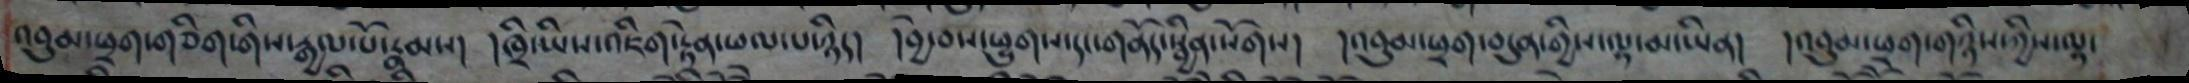འབུམ་ཕྲག་གཅིག་གིས་རྒྱལ་པོ་རྣམས། །ཁྲི་ཡིས་འཇིག་རྟེན་ཕལ་པ་ཉིད། །བྱེ་བས་ཕྱུགས་དང་གནོད་སྦྱིན་སོགས། །འབུམ་ཕྲག་བདུན་གྱིས་ལྷ་མ་ཡིན། །འབུམ་ཕྲག་གཉིས་ཀྱིས་ལྟ་
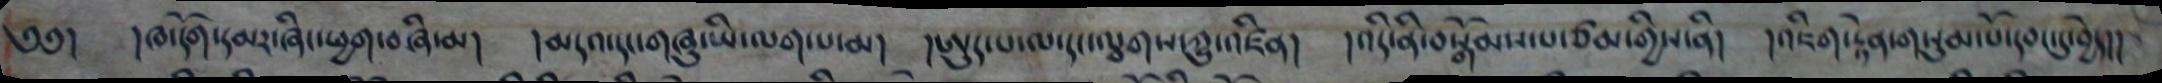༄༅། །ཁ་དོག་དམར་ཞིང་ཕྱག་བཞི་མ། །མདའ་དང་གཞུ་ཡི་ལག་པ་མ། །ཨུད་པ་ལ་དང་ལྕགས་ཀྱུ་འཛིན། །འདི་ནི་བསྒོམས་པ་ཙམ་གྱིས་ནི། །འཇིག་རྟེན་གསུམ་པོ་དབང་དུ་བྱེད།།
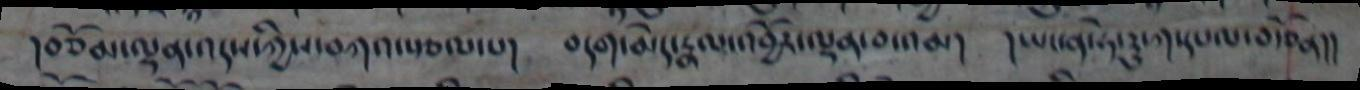།བཅོམ་ལྡན་འདས་ཀྱིས་བཀའ་སྩལ་པ། བདག་མེད་རྣལ་འབྱོར་ལྡན་བ་འམ། །ཡང་ན་ཧེ་རུ་ཀ་དཔལ་བརྩོན།།
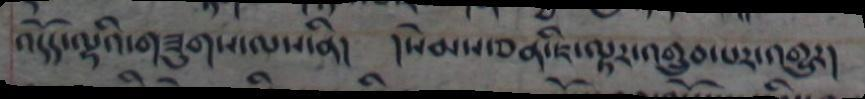འདོད་ལྷའི་གཟུགས་ལས་ནི། །སེམས་ཅན་ཇི་ལྟར་འགྲུབ་པར་འགྱུར།
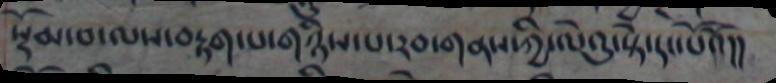སྡོམ་པ་ལས་བརྟག་པ་གཉིས་པ་རབ་གནས་ཀྱི་ལེའུ་གནས་ཀྱི་ལེའུ་སྟེ་དང་པོའོ།།
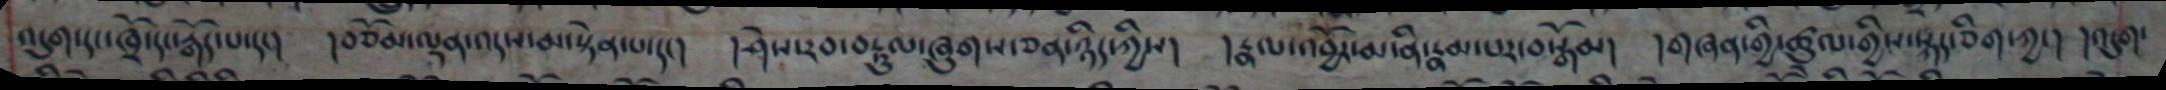འདུག་དང་ཁྲོ་དང་རྒོད་པ་དང། །བཅོམ་ལྡན་འདས་མ་སྟེན་པ་དང། །ཤེས་རབ་བརྟུལ་ཞུགས་ཅན་ཉིད་ཀྱིས། །རྣལ་འབྱོར་མ་ནི་རྣམ་པར་བསྒོམ། །གཞན་གྱི་ཚུལ་གྱིས་སྐད་ཅིག་ཀྱང། །འདུག་
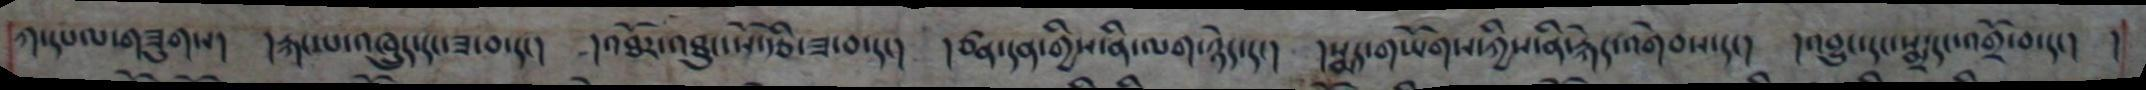ཀ་དཔལ་གཟུགས། །རྐང་པ་འཁྲུད་དང་ཟ་བ་དང། །འཐོར་འཐུང་སོ་རྩི་ཟ་བ་དང། །ཙན་དན་གྱིས་ནི་ལག་ཉེད་དང། །སྨད་གཡོགས་ཀྱིས་ནི་རྐེད་འགེབས་དང། །འབྱུང་དང་སྨྲ་དང་འགྲོ་བ་དང། །
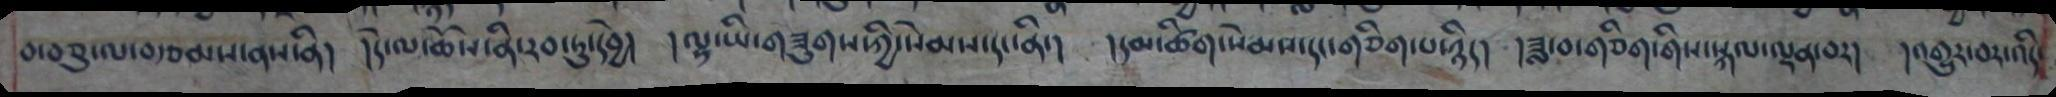བ་བཅུ་ལ་བརྩམས་ནས་ནི། །དེ་ལ་ཆོས་ནི་རབ་ཏུ་དབྱེ། །ལྷ་ཡི་གཟུགས་ཀྱི་སེམས་དང་ནི་། །དམ་ཚིག་སེམས་དང་གཅིག་པ་ཉིད། །ཟླ་བ་གཅིག་གིས་སྐལ་ལྡན་བར། །འགྱུར་བར་འདི་
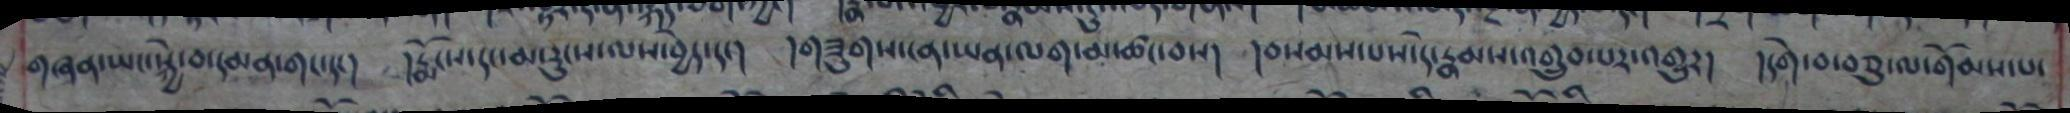གཞན་ཡང་སྐྱེ་བ་དམན་གང་དང། །རྨོངས་དང་མ་རུངས་ལས་བྱེད་དང། །གཟུགས་ངན་ཡན་ལག་མ་ཚང་བས། །བསམས་པས་དེ་རྣམས་འགྲུབ་པར་འགྱུར། །དགེ་བ་བཅུ་ལ་གོམས་པ་
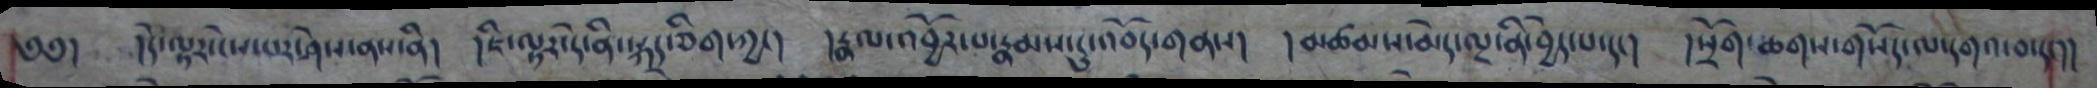༄༅། །དེ་ལྟར་ངེས་པར་ཤེས་ནས་ནི། །ཇི་ལྟར་དེ་ནི་སྐད་ཅིག་ཀྱང། །རྣལ་འབྱོར་པ་རྣམས་དུ་འབོད་གནས། །མཚམས་མེད་ལྔ་ནི་བྱེད་པ་དང། །སྲོག་ཆགས་གསོད་ལ་དགའ་བ་དང།།
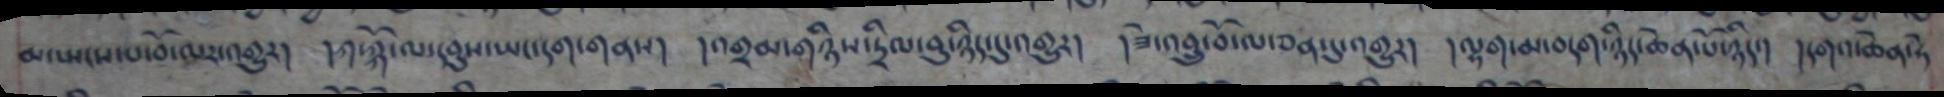མ་སྤངས་པ་བོ་ལར་འགྱུར། །ཀ་ཀྐོ་ལ་དབུས་ཡང་དག་གནས། །འགྲམ་གཉིས་དྲིལ་བུ་ཉིད་དུ་འགྱུར། །ཟེ་འབྲུ་བོ་ལ་ཅན་དུ་འགྱུར། །ལྷག་མ་བདག་ཉིད་ཆེན་པོ་ཉིད་། །དགའ་ཆེན་ཏེ
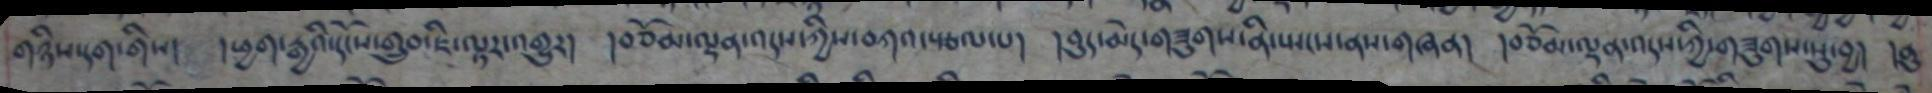གཉིས་དག་གིས། །ཕྱག་རྒྱའི་དངོས་གྲུབ་ཇི་ལྟར་འགྱུར། །བཅོམ་ལྡན་འདས་ཀྱིས་བཀའ་སྩལ་པ། །བུད་མེད་གཟུགས་ནི་སྤངས་ནས་གཞན། །བཅོམ་ལྡན་འདས་ཀྱི་གཟུགས་སུ་བྱ། །ནུ
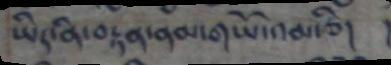ཡིད་ནི་བརྟན་ནམ་གཡོ་འམ་ཅི། །
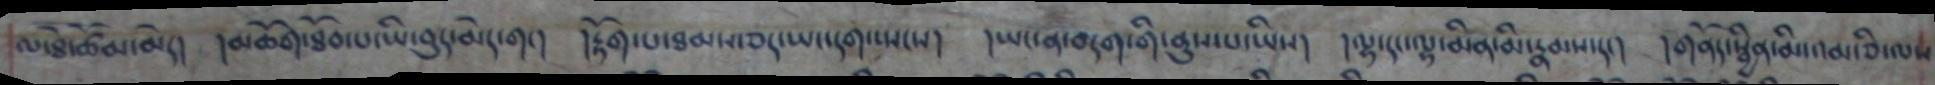ལ་ཐེ་ཚོམ་མེད། །མཆོག་ཐོབ་པ་ཡི་བུད་མེད་གང། །རྟོག་པ་ཐམས་ཅད་ཡང་དག་སྤངས། །ཡང་ན་བདག་གི་ནུས་པ་ཡིས། །ལྷ་དང་ལྷ་མིན་མི་རྣམས་དང། །གནོད་སྦྱིན་མི་འམ་ཅི་ལས
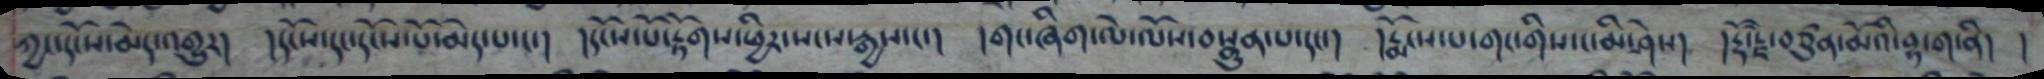ཀྱང་དངོས་མེད་འགྱུར། །དངོས་དང་དངོས་པོ་མེད་པ་ང་། །དངོས་པོ་རྟོགས་ཕྱིར་སངས་རྒྱས་ང་། །གང་ཞིག་ལེ་ལོས་བསྣུན་པ་དང་། །རྨོངས་པ་གང་གིས་ང་མི་ཤེས། །རྡོ་རྗེ་བཙུན་མོའི་བྷ་ག་ནི། །
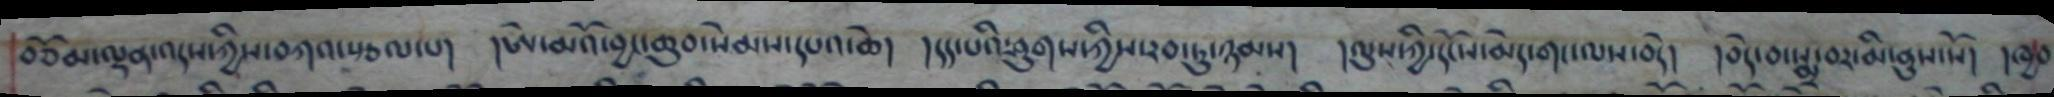བཅོམ་ལྡན་འདས་ཀྱིས་བཀའ་སྩལ་པ། །ཨེ་མའོ་བྱང་ཆུབ་སེམས་དཔའ་ཆེ། །དད་པའི་ཤུགས་ཀྱིས་རབ་ཏུ་ཉམས། །ལུས་ཀྱི་དངོས་མེད་གང་ལས་བདེ། །བདེ་བ་སྨྲ་བར་མི་ནུས་སོ། །ཁྱབ
